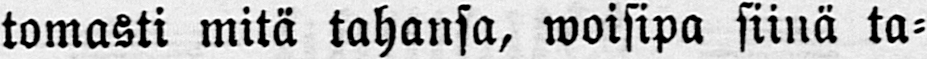tomasti mitä tahansa, woisipa siinä ta-
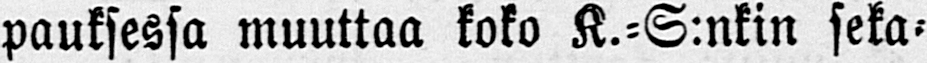pauksessa muuttaa koko K.-S:n kin seka-
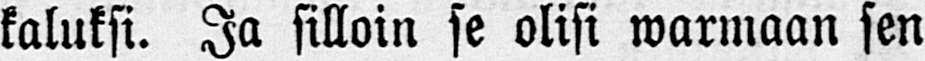kaluksi. Ja silloin se olisi warmaan sen
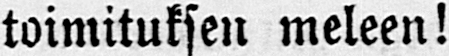toimituksen meteen!
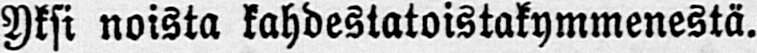Yksi noista kahdestatoistakymmenestä.
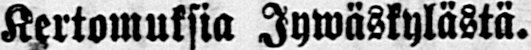Kertomuksia Jywäskylästä.
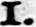I.
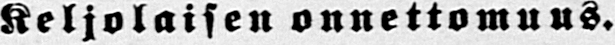Keljolaisen onnettomuus.
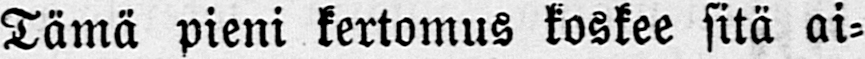Tämä pieni kertomus koskee sitä ai-
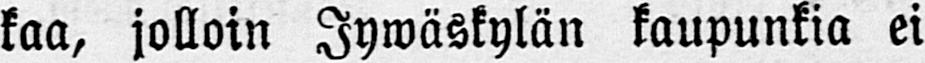kaa, jolloin Jywäskylän kaupunkia ei
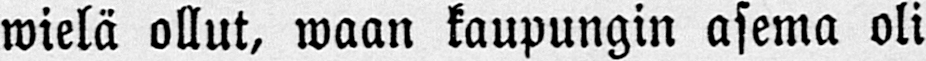wielä ollut, waan kaupungin asema oli
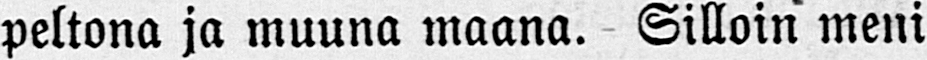peltona ja muuna maana. Silloin meni
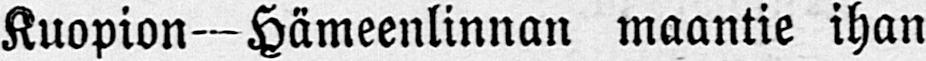Kuopion—Hämeenlinnan maantie ihan
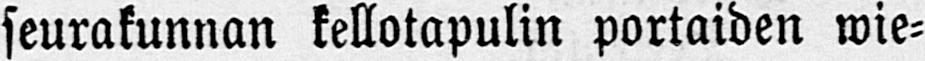seurakunnan kellotapulin portaiden wie-
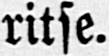ritse.
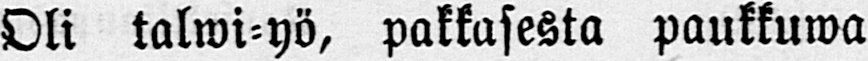Oli talwi-yö, pakkasesta paukkuwa
